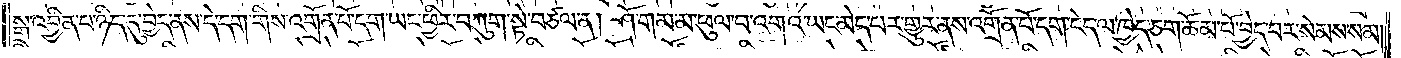སྒྲ་འབྱིན་པ་ཉིད་དུ་བྱེད་ནས་དེ་དག་གིས་འགྲོན་པོ་དག་ཡང་ཕྱིར་བཀུག་སྟེ་བཙལ་ན། ཤོ་གམ་མ་ཕུལ་བ་འགའ་ཡང་མེད་པར་གྱུར་ནས་འགྲོན་པོ་དག་ངེད་ལ་ཁྱེད་ཅག་ཆོམ་པོ་བྱེད་པར་སེམས་སམ་
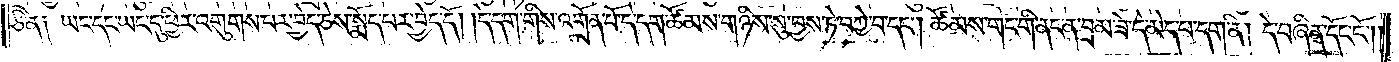ཅི་ན། ཡང་དང་ཡང་དུ་ཕྱིར་འགུགས་པར་བྱེད་ཅེས་སྨོད་པར་བྱེད་དོ། །དེ་དག་གིས་འགྲོན་པོ་དེ་དག་ཚོམས་གཉིས་སུ་བྱས་ཏེ་བཀྱེ་བ་དང༌། ཚོམས་གང་གི་ནང་ན་བྲམ་ཟེ་དེ་མེད་པ་དག་ནི། དེ་བཞིན་དོང་ངོ༌།
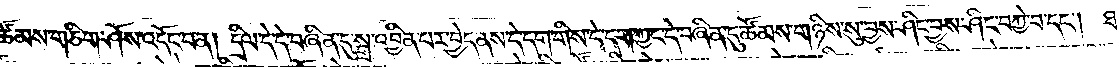ཚོམས་གཅིག་ཤོས་འདོང་བ་ན། དྲིལ་དེ་དེ་བཞིན་དུ་སྒྲ་འབྱིན་པར་བྱེད་ནས་དེ་དག་གིས་དེ་དག་ཀྱང་དེ་བཞིན་དུ་ཚོམས་གཉིས་སུ་བྱས་ཤིང་བྱས་ཤིང་བཀྱེ་བ་དང༌། ཐ་
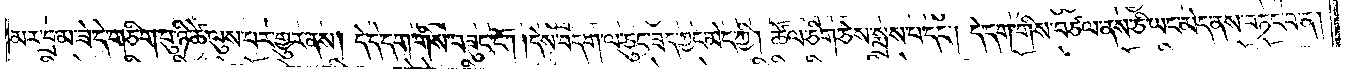མར་བྲམ་ཟེ་དེ་གཅིག་པུ་ཉི་ཚེ་ལུས་པར་གྱུར་ནས། དེ་དེ་དག་གིས་བཟུང་ངོ༌། །དེས་བདག་ལ་ཅུང་ཟད་ཀྱང་མེད་ཀྱི། ཚོལ་ཅིག་ཅེས་སྨྲས་པ་དང༌། དེ་དག་གིས་བཙལ་ནས་ཅི་ཡང་མེད་ནས་བཏང་བ་ན།
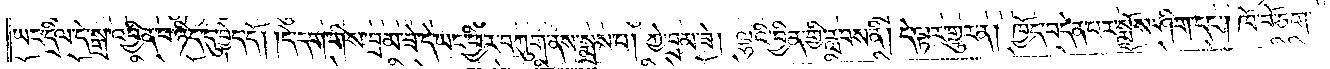ཡང་དྲིལ་དེ་སྒྲ་འབྱིན་པ་ཉིད་དུ་བྱེད་དོ། །དེ་དག་གིས་བྲམ་ཟེ་དེ་ཡང་ཕྱིར་བཀུག་ནས་སྨྲས་པ། ཀྱེ་བྲམ་ཟེ། ལྷའི་བྱིན་གྱི་རླབས་ནི། དེ་ལྟར་གྱུར་ན། ཁྱོད་བདེན་པར་སྨྲོས་ཤིག་དང༌། ཁོ་བོ་ཅག་
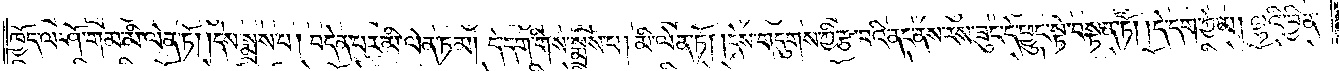ཁྱོད་ལ་ཤོ་གམ་མི་ལེན་ཏོ། །དེས་སྨྲས་པ། བདེན་པར་མི་ལེན་ཏམ། དེ་དག་གིས་སྨྲས་པ། མི་ལེན་ཏོ། དེས་གདུགས་ཀྱི་རྩ་བའི་ནང་ནས་རས་ཟུང་དེ་ཕྱུང་སྟེ་བསྟན་ཏོ། །དེ་དག་ཀྱེ་མ། ལྷའི་བྱིན་
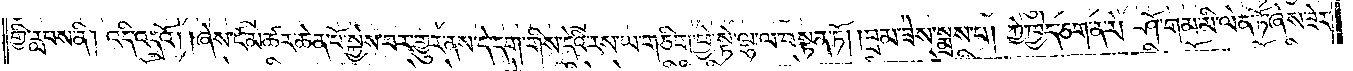གྱི་རླབས་ནི། འདི་འདྲའོ། །ཞེས་ངོ་མཚར་ཆེན་པོ་སྐྱེས་བར་གྱུར་ནས་དེ་དག་གིས་དེའི་རས་ཡ་གཅིག་ཕྱེ་སྟེ་ལྷ་ལ་བསྟན་ཏོ། །བྲམ་ཟེས་སྨྲས་པ། ཀྱེ་ཁྱེད་ཅག་ན་རེ། ཤོ་གམ་མི་ལེན་ཏོ་ཞེས་ཟེར་
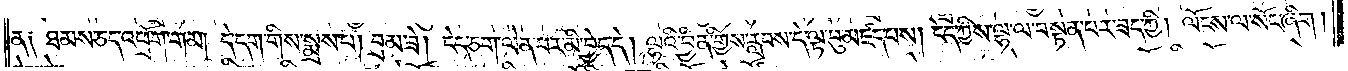ན༑ ཐམས་ཅད་འཕྲོག་གམ། དེ་དག་གིས་སྨྲས་པ། བྲམ་ཟེ། ངེད་ཅག་ལེན་པར་མི་བྱེད་དེ། ལྷའི་བྱིན་གྱིས་རླབས་དེ་ལྟ་ཕུ་མཛད་པས། ངེད་ཀྱིས་ལྷ་ལ་བསྟན་པར་ཟད་ཀྱི། ལོངས་ལ་སོང་ཞིག །
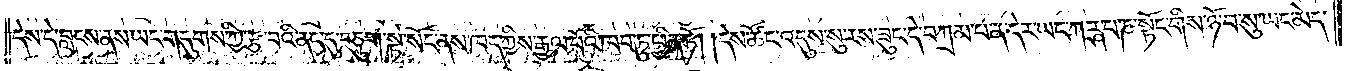དེས་དེ་བླངས་ནས་ཡང་གདུགས་ཀྱི་རྩ་བའི་ནང་དུ་བཅུག་སྟེ་སོང་ནས་ཁད་ཀྱིས་རྒྱལ་པོའི་ཁབ་ཏུ་ཕྱིན་ཏོ། །དེས་ཚོང་འདུས་སུ་རས་ཟུང་དེ་བཀྲམ་པ་ན་དེར་ཡང་ཀཪྴ་པ་ཎ་སྟོང་གིས་ཉོ་བ་སུ་ཡང་མེད་
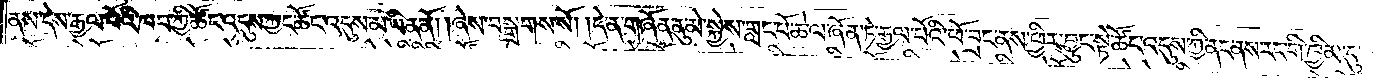ནས་དེས་རྒྱལ་པོའི་ཁབ་ཀྱི་ཚོང་འདུས་ཀྱང་ཚོང་འདུས་མ་ཡིན་ནོ། །ཞེས་བསྒྲགས་སོ། །དེ་ན་གཞོན་ནུ་མེ་སྐྱེས་གླང་པོ་ཆེ་ལ་ཞོན་ཏེ་རྒྱལ་པོའི་ཕོ་བྲང་ནས་ཕྱིར་བྱུང་སྟེ་ཚོང་འདུས་ཀྱི་ནང་ནས་རང་གི་ཁྱིམ་དུ་
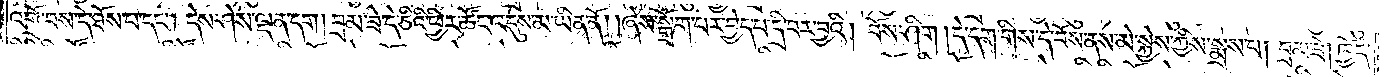འགྲོ་བས་དེ་ཐོས་པ་དང༌། དེས་ཤེས་ལྡན་དག །བྲམ་ཟེ་དེ་ཅིའི་ཕྱིར་ཚོང་འདུས་མ་ཡིན་ནོ། །ཞེས་སྒྲོག་པར་བྱེད་པ་དྲི་བར་བྱའི། བོས་ཤིག །དེ་དག་གིས་དེ་བོས་ནས་མེ་སྐྱེས་ཀྱིས་སྨྲས་པ། བྲམ་ཟེ། ཁྱོད་
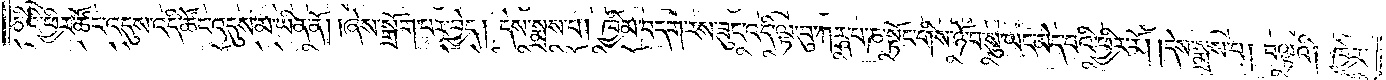ཅིའི་ཕྱིར་ཚོང་འདུས་འདི་ཚོང་འདུས་མ་ཡིན་ནོ། །ཞེས་སྒྲོག་པར་བྱེད། དེས་སྨྲས་པ། ཁྱིམ་བདག་རས་ཟུང་འདི་ལྟ་བུ་ཀཪྴ་པ་ཎ་སྟོང་གིས་ཉོ་བ་སུ་ཡང་མེད་པའི་ཕྱིར་རོ། །དེས་སྨྲས་པ། བལྟའི། ཁྱེར་
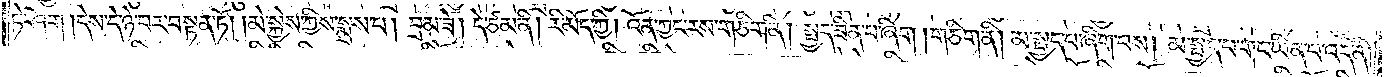ཏེ་ཤོག །དེས་དེ་ཉེ་བར་བསྟན་ཏོ། །མེ་སྐྱེས་ཀྱིས་སྨྲས་པ། བྲམ་ཟེ། དེ་ཙམ་ནི། རི་མོད་ཀྱི། འོན་ཀྱང་རས་གཅིག་ནི། སྤྱད་ཟིན་པ་ཞིག །གཅིག་ནི། མ་སྤྱད་པ་ཞིག་པས། མ་སྤྱད་པ་གང་ཡིན་པ་འདི་ནི།
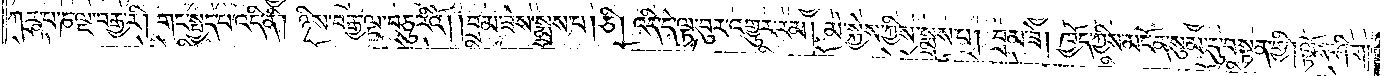ཀཪྴ་པ་ཎ་ལྔ་བརྒྱ་རི། གང་སྤྱད་པ་འདི་ནི། ཉིས་བརྒྱ་ལྔ་བཅུ་རིའོ། །བྲམ་ཟེས་སྨྲས་པ། ཅི། འདི་དེ་ལྟ་བུར་འགྱུར་རམ། མེ་སྐྱེས་ཀྱིས་སྨྲས་པ། བྲམ་ཟེ། ཁྱོད་ཀྱིས་མངོན་སུམ་དུ་བསྟན་གྱི། ལྟོས་ཤིག།
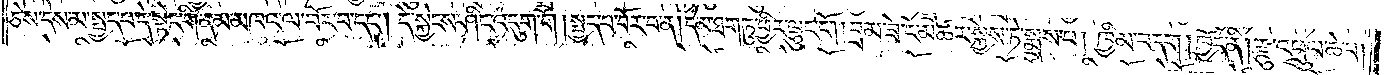ཅེས་དེས་མ་སྤྱད་པ་དེ་སྟེང་གི་ནམ་མཁའ་ལ་བོར་བ་དང༌། དེ་སྐྱེངས་ཤིང་འདུག་གོ །སྤྱད་པ་བོར་བ་ན། དེ་མ་ཐག་ཏུ་ཕྱིར་ལྷུང་ངོ༌། །བྲམ་ཟེ་ངོ་མཚར་སྐྱེས་ཏེ་སྨྲས་པ། ཁྱིམ་བདག། ཁྱོད་ནི། རྫུ་འཕྲུལ་ཆེ་བ།
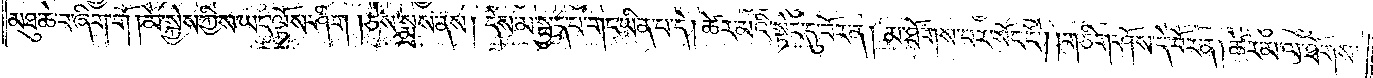མཐུ་ཆེ་བ་ཞིག་གོ །མེ་སྐྱེས་ཀྱིས་ཡང་ལྟོས་ཤིག །ཅེས་སྨྲས་ནས། དེས་མ་སྤྱད་པ་གང་ཡིན་པ་དེ། ཚེར་མའི་སྟེང་དུ་བོར་ན། མ་ཐོགས་པར་སོང་ངོ༌། །གཅིག་ཤོས་དེ་བོར་ན། ཚེར་མ་ལ་ཐོགས་
